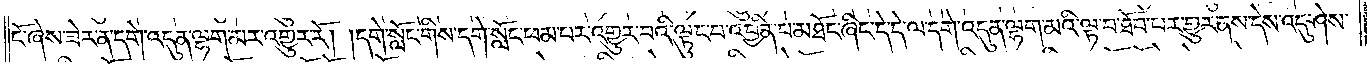ངོ་ཞེས་ཟེར་ན་དགེ་འདུན་ལྷག་མར་འགྱུར་རོ། །དགེ་སློང་གིས་དགེ་སློང་ཕམ་པར་འགྱུར་བའི་ལྟུང་བ་འབྱིན་པ་མཐོང་ཞིང་དེ་དེ་ལ་དགེ་འདུན་ལྷག་མའི་ལྟ་བ་ཐོབ་པར་གྱུར་ནས་དེས་འདུ་ཤེས་
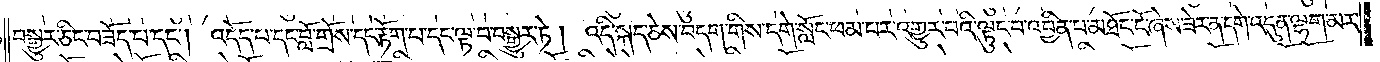བསྒྱུར་ཅིང་བཟོད་པ་དང༌། འདོད་པ་དང་བློ་གྲོས་དང་རྟོག་པ་དང་ལྟ་བ་བསྒྱུར་ཏེ། འདི་སྐད་ཅེས་བདག་གིས་དགེ་སློང་ཕམ་པར་འགྱུར་བའི་ལྟུང་བ་འབྱིན་པ་མཐོང་ངོ་ཞེས་ཟེར་ན་དགེ་འདུན་ལྷག་མར་
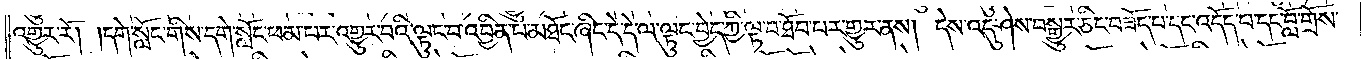འགྱུར་རོ། །དགེ་སློང་གིས་དགེ་སློང་ཕམ་པར་འགྱུར་བའི་ལྟུང་བ་འབྱིན་པ་མཐོང་ཞིང་དེ་དེ་ལ་ལྟུང་བྱེད་ཀྱི་ལྟ་བ་ཐོབ་པར་གྱུར་ནས། དེས་འདུ་ཤེས་བསྒྱུར་ཅིང་བཟོད་པ་དང་འདོད་པ་དང་བློ་གྲོས་
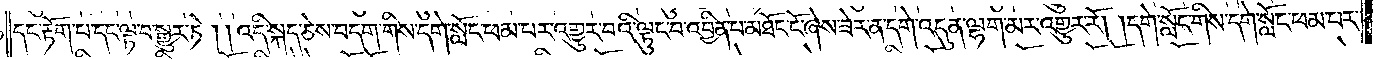དང་རྟོག་པ་དང་ལྟ་བ་སྒྱུར་ཏེ། །འདི་སྐད་ཅེས་བདག་གིས་དགེ་སློང་ཕམ་པར་འགྱུར་བའི་ལྟུང་བ་འབྱིན་པ་མཐོང་ངོ་ཞེས་ཟེར་ན་དགེ་འདུན་ལྷག་མར་འགྱུར་རོ། །དགེ་སློང་གིས་དགེ་སློང་ཕམ་པར་
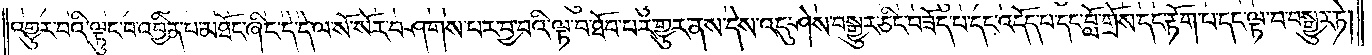འགྱུར་བའི་ལྟུང་བ་འབྱིན་པ་མཐོང་ཞིང་དེ་དེ་ལ་སོ་སོར་བཤགས་པར་བྱ་བའི་ལྟ་བ་ཐོབ་པར་གྱུར་ནས་དེས་འདུ་ཤེས་བསྒྱུར་ཅིང་བཟོད་པ་དང་འདོད་པ་དང་བློ་གྲོས་དང་རྟོག་པ་དང་ལྟ་བ་བསྒྱུར་ཏེ།
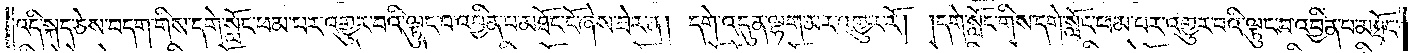འདི་སྐད་ཅེས་བདག་གིས་དགེ་སློང་ཕམ་པར་འགྱུར་བའི་ལྟུང་བ་འབྱིན་པ་མཐོང་ངོ་ཞེས་ཟེར་ན། དགེ་འདུན་ལྷག་མར་འགྱུར་རོ། །དགེ་སློང་གིས་དགེ་སློང་ཕམ་པར་འགྱུར་བའི་ལྟུང་བ་འབྱིན་པ་མཐོང་
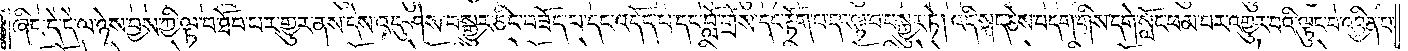ཞིང་དེ་དེ་ལ་ཉེས་བྱས་ཀྱི་ལྟ་བ་ཐོབ་པར་གྱུར་ནས་དེས་འདུ་ཤེས་བསྒྱུར་ཅིང་བཟོད་པ་དང་འདོད་པ་དང་བློ་གྲོས་དང་རྟོག་པ་དང་ལྟ་བ་བསྒྱུར་ཏེ། འདི་སྐད་ཅེས་བདག་གིས་དགེ་སློང་ཕམ་པར་འགྱུར་བའི་ལྟུང་བ་འབྱིན་པ་
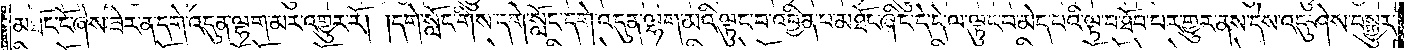མཐོང་ངོ་ཞེས་ཟེར་ན་དགེ་འདུན་ལྷག་མར་འགྱུར་རོ། །དགེ་སློང་གིས་དགེ་སློང་དགེ་འདུན་ལྷག་མའི་ལྟུང་བ་འབྱིན་པ་མཐོང་ཞིང་དེ་དེ་ལ་ལྟུང་བ་མེད་པའི་ལྟ་བ་ཐོབ་པར་གྱུར་ནས་དེས་འདུ་ཤེས་བསྒྱུར་
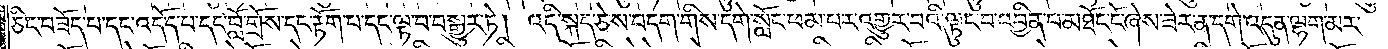ཅིང་བཟོད་པ་དང་འདོད་པ་དང་བློ་གྲོས་དང་རྟོག་པ་དང་ལྟ་བ་བསྒྱུར་ཏེ། འདི་སྐད་ཅེས་བདག་གིས་དགེ་སློང་ཕམ་པར་འགྱུར་བའི་ལྟུང་བ་འབྱིན་པ་མཐོང་ངོ་ཞེས་ཟེར་ན་དགེ་འདུན་ལྷག་མར་
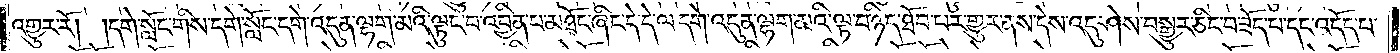འགྱུར་རོ། །དགེ་སློང་གིས་དགེ་སློང་དགེ་འདུན་ལྷག་མའི་ལྟུང་བ་འབྱིན་པ་མཐོང་ཞིང་དེ་དེ་ལ་དགེ་འདུན་ལྷག་མའི་ལྟ་བ་ཉིད་ཐོབ་པར་གྱུར་ནས་དེས་འདུ་ཤེས་བསྒྱུར་ཅིང་བཟོད་པ་དང་འདོད་པ་
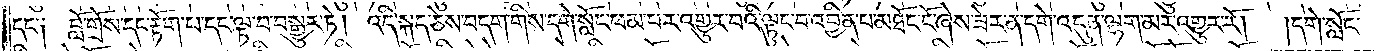དང་༑ བློ་གྲོས་དང་རྟོག་པ་དང་ལྟ་བ་བསྒྱུར་ཏེ། འདི་སྐད་ཅེས་བདག་གིས་དགེ་སློང་ཕམ་པར་འགྱུར་བའི་ལྟུང་བ་འབྱིན་པ་མཐོང་ངོ་ཞེས་ཟེར་ན་དགེ་འདུན་ལྷག་མར་འགྱུར་རོ།  །དགེ་སློང་
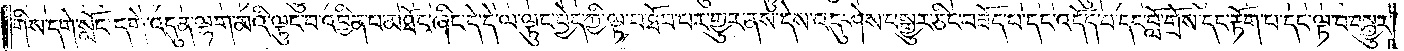གིས་དགེ་སློང་དགེ་འདུན་ལྷག་མའི་ལྟུང་བ་འབྱིན་པ་མཐོང་ཞིང་དེ་དེ་ལ་ལྟུང་བྱེད་ཀྱི་ལྟ་བ་ཐོབ་པར་གྱུར་ནས་དེས་འདུ་ཤེས་བསྒྱུར་ཅིང་བཟོད་པ་དང་འདོད་པ་དང་བློ་གྲོས་དང་རྟོག་པ་དང་ལྟ་བ་བསྒྱུར་
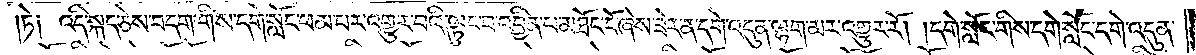ཏེ། འདི་སྐད་ཅེས་བདག་གིས་དགེ་སློང་ཕམ་པར་འགྱུར་བའི་ལྟུང་བ་འབྱིན་པ་མཐོང་ངོ་ཞེས་ཟེར་ན་དགེ་འདུན་ལྷག་མར་འགྱུར་རོ། །དགེ་སློང་གིས་དགེ་སློང་དགེ་འདུན་
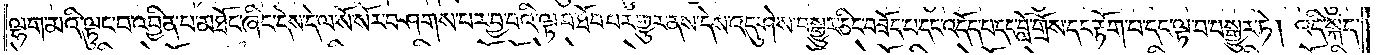ལྷག་མའི་ལྟུང་བ་འབྱིན་པ་མཐོང་ཞིང་དེས་དེ་ལ་སོ་སོར་བཤགས་པར་བྱ་བའི་ལྟ་བ་ཐོབ་པར་གྱུར་ནས་དེས་འདུ་ཤེས་བསྒྱུར་ཅིང་བཟོད་པ་དང་འདོད་པ་དང་བློ་གྲོས་དང་རྟོག་པ་དང་ལྟ་བ་བསྒྱུར་ཏེ། འདི་སྐད་
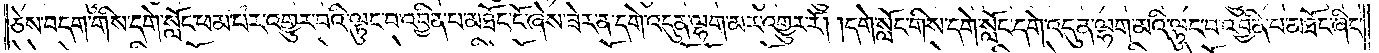ཅེས་བདག་གིས་དགེ་སློང་ཕམ་པར་འགྱུར་བའི་ལྟུང་བ་འབྱིན་པ་མཐོང་ངོ་ཞེས་ཟེར་ན་དགེ་འདུན་ལྷག་མར་འགྱུར་རོ། །དགེ་སློང་གིས་དགེ་སློང་དགེ་འདུན་ལྷག་མའི་ལྟུང་བ་འབྱིན་པ་མཐོང་ཞིང་
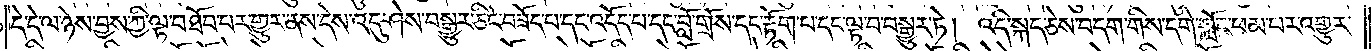དེ་དེ་ལ་ཉེས་བྱས་ཀྱི་ལྟ་བ་ཐོབ་པར་གྱུར་ནས་དེས་འདུ་ཤེས་བསྒྱུར་ཅིང་བཟོད་པ་དང་འདོད་པ་དང་བློ་གྲོས་དང་རྟོག་པ་དང་ལྟ་བ་བསྒྱུར་ཏེ། འདི་སྐད་ཅེས་བདག་གིས་དགེ་སློང་ཕམ་པར་འགྱུར་
